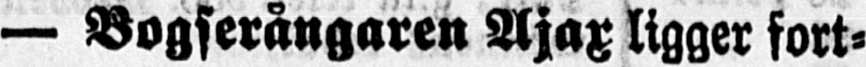— Bogserångaren Ajax ligger fort-
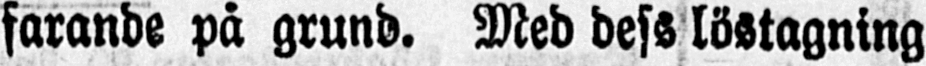farande på grund. Med dess löstagning
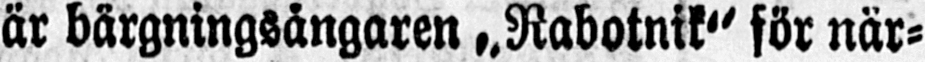är bärgningsångaren "Rabotnik" för när-
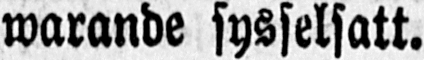warande sysselsatt.
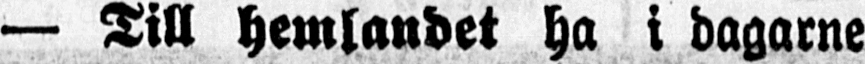— Till hemlandet ha i dagarne
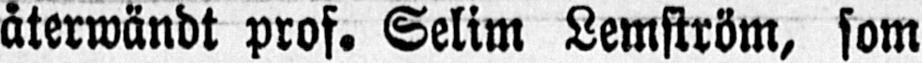återwändt prof. Selim Lemström, som
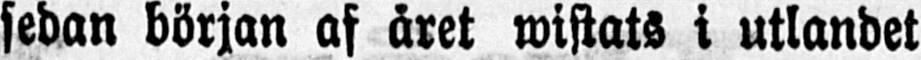sedan början af året wistats i utlandet
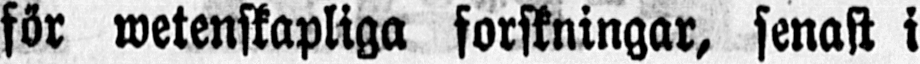för wetenskapliga forskningar, senast i
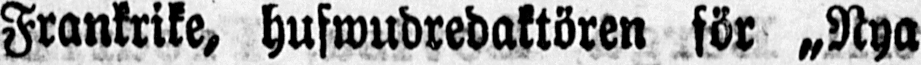Frankrike, hufwudredaktören för „Nya
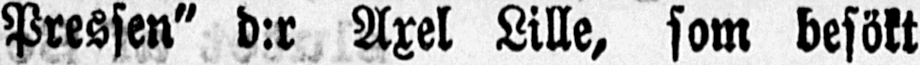Pressen" d:r Axel Lille, som besökt
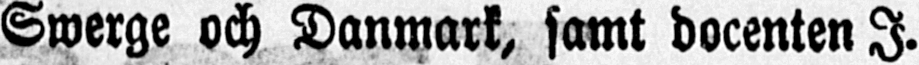Swerge och Danmark, samt docenten I.
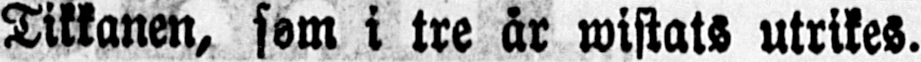Tikkanen, som i tre år wistats utrikes.
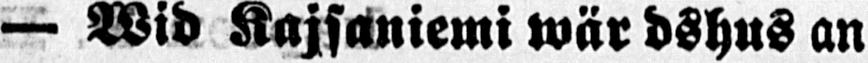— Wid Kajsaniemi wärdshus an
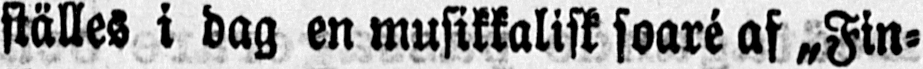ställes i dag en musikkalisk soaré af "Fin-
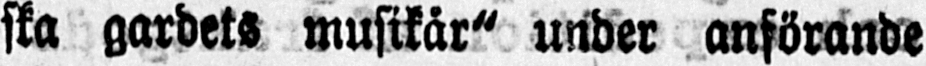ska gardets musikår" under anförande
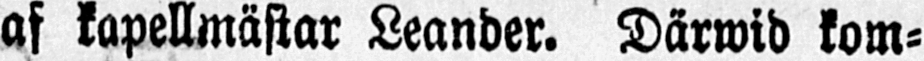af kapellmästar Leander. Därwid kom-
